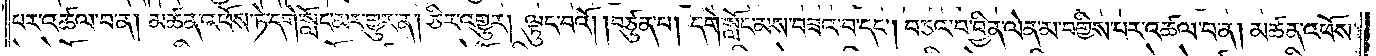པར་འཚལ་བ་ན། མཚན་འཕོས་ཏེ་དགེ་སློང་མར་གྱུར་ན། ཅིར་འགྱུར། ལྟུང་བའོ། །བཙུན་པ། དགེ་སློང་མས་བཟའ་བ་དང༌། བཅའ་བ་བྱིན་ལེན་མ་བགྱིས་པར་འཚལ་བ་ན། མཚན་འཕོས་
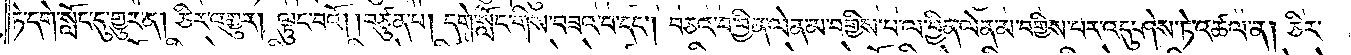ཏེ་དགེ་སློང་དུ་གྱུར་ན། ཅིར་འགྱུར། ལྟུང་བའོ། །བཙུན་པ། དགེ་སློང་གིས་བཟའ་བ་དང༌། བཅའ་བ་བྱིན་ལེན་མ་བགྱིས་པ་ལ་བྱིན་ལེན་མ་བགྱིས་པར་འདུ་ཤེས་ཏེ་འཚལ་ན། ཅིར་
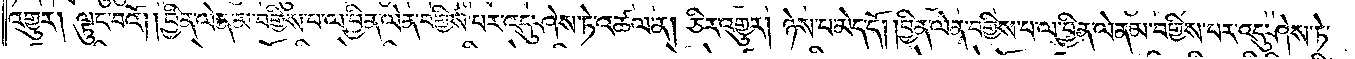འགྱུར། ལྟུང་བའོ། །བྱིན་ལེན་མ་བགྱིས་པ་ལ་བྱིན་ལེན་བགྱིས་པར་འདུ་ཤེས་ཏེ་འཚལ་ན། ཅིར་འགྱུར། ཉེས་པ་མེད་དོ། །བྱིན་ལེན་བགྱིས་པ་ལ་བྱིན་ལེན་མ་བགྱིས་པར་འདུ་ཤེས་ཏེ་
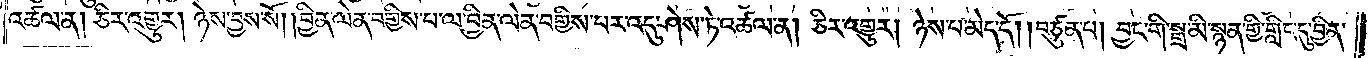འཚལ་ན། ཅིར་འགྱུར། ཉེས་བྱས་སོ། །བྱིན་ལེན་བགྱིས་པ་ལ་བྱིན་ལེན་བགྱིས་པར་འདུ་ཤེས་ཏེ་འཚལ་ན། ཅིར་འགྱུར། ཉེས་པ་མེད་དོ། །བཙུན་པ། བྱང་གི་སྒྲ་མི་སྙན་གྱི་གླིང་དུ་བྱིན་
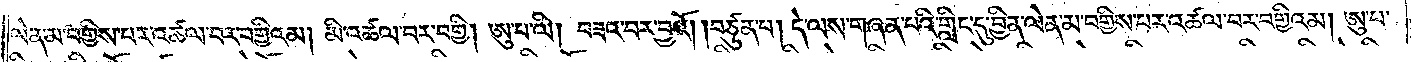ལེན་མ་བགྱིས་པར་འཚལ་བར་བགྱིའམ། མི་འཚལ་བར་བགྱི། ཨུ་པ་ལི། བཟའ་བར་བྱའོ། །བཙུན་པ། དེ་ལས་གཞན་པའི་གླིང་དུ་བྱིན་ལེན་མ་བགྱིས་པར་འཚལ་བར་བགྱིའམ། ཨུ་པ་
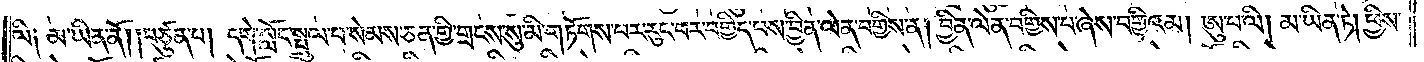ལི༑ མ་ཡིན་ནོ། །བཙུན་པ། དགེ་སློང་སྤྲུལ་པ་སེམས་ཅན་གྱི་གྲངས་སུ་མི་གཏོགས་པར་རུང་བར་བགྱིད་པས་བྱིན་ལེན་བགྱིས་ན། བྱིན་ལེན་བགྱིས་པ་ཞེས་བགྱིའམ། ཨུ་པ་ལི། མ་ཡིན་ཏེ། ཕྱིས་
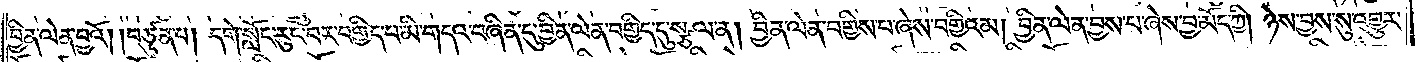བྱིན་ལེན་བྱའོ། །བཙུན་པ། དགེ་སློང་རུང་བར་བགྱིད་པ་མི་གདའ་བཞིན་དུ་བྱིན་ལེན་བགྱིད་དུ་སྩལ་ན། བྱིན་ལེན་བགྱིས་པ་ཞེས་བགྱིའམ། བྱིན་ལེན་བྱས་པ་ཞེས་བྱ་མོད་ཀྱི། ཉེས་བྱས་སུ་འགྱུར་
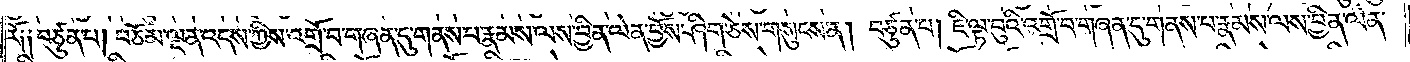རོ༑ ༑བཙུན་པ། བཅོམ་ལྡན་འདས་ཀྱིས་འགྲོ་བ་གཞན་དུ་གནས་པ་རྣམས་ལས་བྱིན་ལེན་བྱོས་ཤིག་ཅེས་གསུངས་ན། བཙུན་པ། ཇི་ལྟ་བུའི་འགྲོ་བ་གཞན་དུ་གནས་པ་རྣམས་ལས་བྱིན་ལེན་
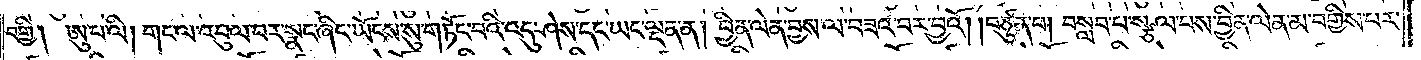བགྱི། ཨུ་པ་ལི། གང་ལ་འབུལ་བར་སྣང་ཞིང་ཡོངས་སུ་གཏོང་བའི་འདུ་ཤེས་དང་ཡང་ལྡན་ན། བྱིན་ལེན་བྱས་ལ་བཟའ་བར་བྱའོ། །བཙུན་པ། བསླབ་པ་སྩལ་པས་བྱིན་ལེན་མ་བགྱིས་པར་
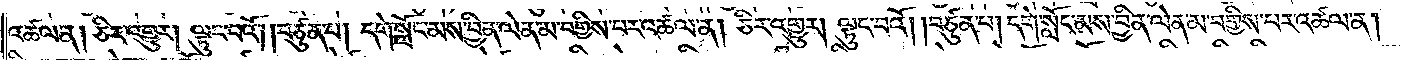འཚལ་ན། ཅིར་འགྱུར། ལྟུང་བའོ། །བཙུན་པ། དགེ་སློང་མས་བྱིན་ལེན་མ་བགྱིས་པར་འཚལ་ན། ཅིར་འགྱུར། ལྟུང་བའོ། །བཙུན་པ། དགེ་སློང་མས་བྱིན་ལེན་མ་བགྱིས་པར་འཚལ་ན།
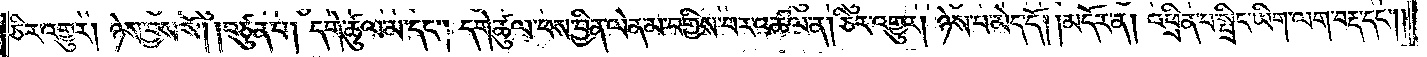ཅིར་འགྱུར། ཉེས་བྱས་སོ། །བཙུན་པ། དགེ་ཚུལ་མ་དང༌། དགེ་ཚུལ་ཕས་བྱིན་ལེན་མ་བགྱིས་པར་འཚལ་ན། ཅིར་འགྱུར། ཉེས་པ་མེད་དོ།    །མདོར་ན། འཕྲིན་པ་སྤྲིང་ཡིག་ལག་བརྡ་དང༌༎
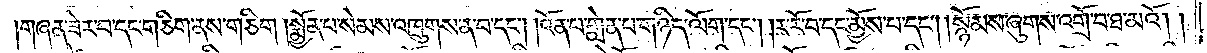གཞན་ཟེར་བ་དང་གཅིག་ནས་གཅིག །སྨྱོན་པ་སེམས་འཁྲུགས་ན་བ་དང༌། །འོན་པ་གླེན་པ་གཉིད་ལོག་དང༌། །ར་རོ་བ་དང་མྱོས་པ་དང༌། །སྙོམས་ཞུགས་འགྲོ་བ་ཐ་མའོ། །
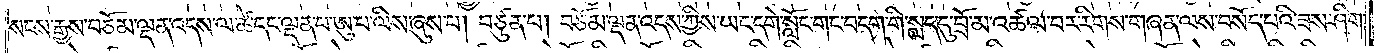སངས་རྒྱས་བཅོམ་ལྡན་འདས་ལ་ཚེ་དང་ལྡན་པ་ཨུ་པ་ལིས་ཞུས་པ། བཙུན་པ། བཅོམ་ལྡན་འདས་ཀྱིས་ཡང་དགེ་སློང་གང་བདག་གི་སླད་དུ་བྲོ་མ་འཚལ་བར་རིགས་གཞན་ལས་བསོད་པའི་ཟས་ཤིག་
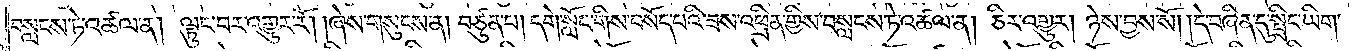བསླངས་ཏེ་འཚལ་ན། ལྟུང་བར་འགྱུར་རོ། །ཞེས་གསུངས་ན། བཙུན་པ། དགེ་སློང་གིས་བསོད་པའི་ཟས་འཕྲིན་གྱིས་བསླངས་ཏེ་འཚལ་ན། ཅིར་འགྱུར། ཉེས་བྱས་སོ། །དེ་བཞིན་དུ་སྤྲིང་ཡིག་
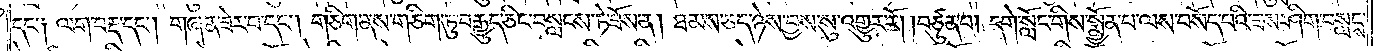དང་༑ ལག་བརྡ་དང༌། གཞན་ཟེར་བ་དང༌། གཅིག་ནས་གཅིག་ཏུ་བརྒྱུད་ཅིང་བསླངས་ཏེ་ཟོས་ན། ཐམས་ཅད་ཉེས་བྱས་སུ་འགྱུར་རོ། །བཙུན་པ། དགེ་སློང་གིས་སྨྱོན་པ་ལས་བསོད་པའི་ཟས་ཤིག་བསླངས་
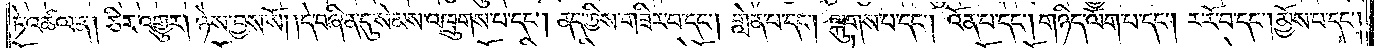ཏེ་འཚལ་ན། ཅིར་འགྱུར། ཉེས་བྱས་སོ། །དེ་བཞིན་དུ་སེམས་འཁྲུགས་པ་དང༌། ནད་ཀྱིས་གཟིར་བ་དང༌། གླེན་པ་དང༌། ལྐུགས་པ་དང༌། འོན་པ་དང༌། གཉིད་ལོག་པ་དང༌། ར་རོ་བ་དང༌། མྱོས་པ་དང༌།
